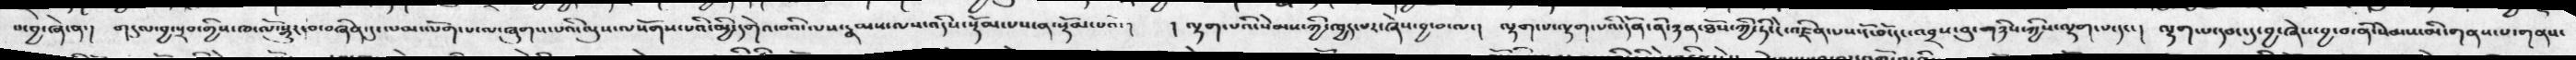བ་བྱི་ཞེ་ན་།   གདུལ་བྱ་སྲབ་གྱི་ཁ་ལོ་སྡུང་བ་བཞིན་དུ་ལམ་ལོག་པ་ལ་ཞུགས་པའི་ལུས་ལསོགས་པའི་མྱི་དགེའ་བའི་ལས་རྣམས་ལས་འདིས་སྡོམ་པས་ན་སྡོམ་པའོ་།   ། ལྷག་པའི་སེམས་ཀྱི་ཁྱད་པར་ཞེས་བྱ་བ་ལ་།   ལྷག་པ་ལྷག་པའི་དོན་ནི་ཉན་ཐོས་ཀྱི་ཏིང་ངེ་འཛིན་པས་ངོ་བོ་དང་འབྲས་བུ་གཉིས་ཀྱིས་ལྷག་པ་དང་།   ལྷག་པ་དབང་དུ་བྱ་ཞེས་བྱ་བ་ནི་སེམས་མི་གནས་པ་གནས་
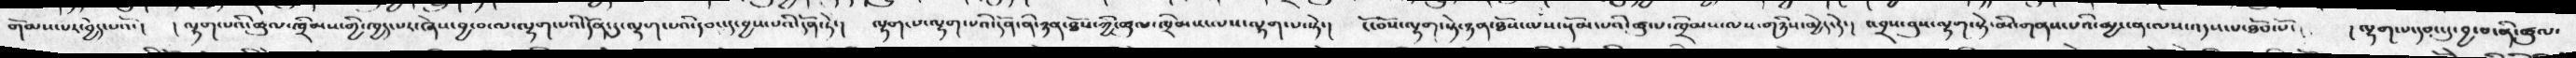གོམས་པར་བྱེད་པའོ་།   །ལྷག་པའི་ཚུལ་ཁྲིམས་གྱི་ཁྱད་པར་ཞེས་བྱ་བ་ལ་ལྷག་པའི་དོན་དུ་ལྷག་པའི་དབང་དུ་བྱས་པའི་དོན་ཏེ་།   ལྷག་པ་ལྷག་པའི་དོན་ནི་ཉན་ཐོས་གྱི་ཚུལ་ཁྲིམས་ལས་ལྷག་པ་སྟེ་།  ངོ་བོས་ལྷག་སྟེ་ཉན་ཐོས་ལས་སྡོམ་པའི་ཚུལ་ཁྲིམས་ལས་གཉིས་མྱེད་དེ་།   འབྲས་བུ་ལྷག་སྟེ་མི་གནས་པའི་མྱ་ངན་ལས་འདས་པ་ཐོབ་པོ་།    ། ལྷག་པ་དབང་དུ་བྱ་བ་ནི་ཚུལ་
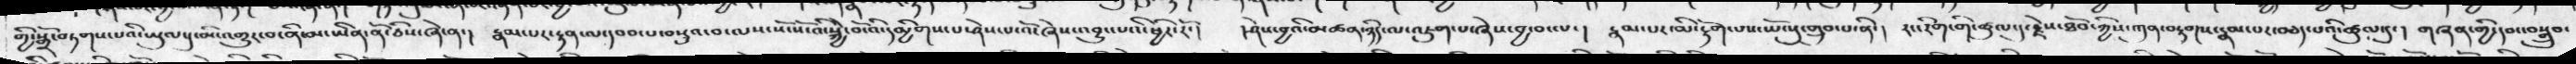གྱི་སྒྲོ་བཏགས་པའི་ཡུལ་དུ་མི་འགྱུར་བ་ནི་མ་ཡིན་ནོ་ཅིས་ཞེ་ན་།   རྣམ་པར་རྟན་ལ་དབབ་པ་བསྡུའ་བ་ལས་སོ་སོ་བ་སྐྱེ་བོ་འི་དམྱིགས་པ་ཤེས་༷པ་འོང་ཞེས་འབྱུང་པའི་ཕྱིར་རོ་།  ། ཤེས་བྱའི་མཚན་ཉིད་ལ་འཇུག་པ་ཞེས་བྱ་བ་ལ་།    རྣམ་པར་མི་རྟོག་པས་ཡོངསུ་གྲུབ་པ་ནི་།   རང་རིག་གི་ཚུལ་དུ་རྗེས་ཐོབ་ཀྱིས་ཀུན་བཏགས་རྣམ་པར་བཅད་པའི་ཚུལལ་དུ་།  གཞན་གྱི་དབང་བསྒྲུབ་
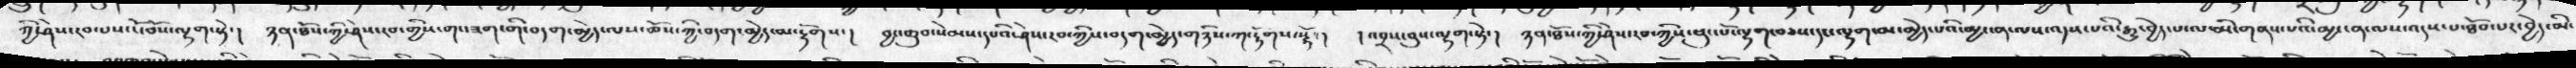ཀྱི་ཤེས་རབ་པས་ངོ་བོས་ལྷག་སྟེ་།   ཉན་ཐོས་ཀྱི་ཤེས་རབ་གྱིས་གང་ཟག་གི་བདག་མྱེད་ལས་ཆོས་ཀྱི་བདག་མྱེད་མ་རྟོགས་།   བྱང་ཆུབ་སེམས་དཔའི་ཤེས་རབ་ཀྱིས་བདག་མྱེད་གཉིས་ཀ་རྟོགས་སྷོ་།  ། འབྲས་བུ་ལྷག་སྟེ་།   ཉན་ཐོས་ཀྱི་ཤེས་རབ་ཀྱིས་ཕུང་པོ་ལྷག་བཅས་དང་ལྷག་མ་མྱེད་པའི་མྱ་ངན་ལས་འདས་པའི་རྒྱུ་བྱེད་པ་ལ་མི་གནས་པའི་མྱ་ངན་ལས་འདས་པ་ཐོབ་པར་བྱེད་མི་
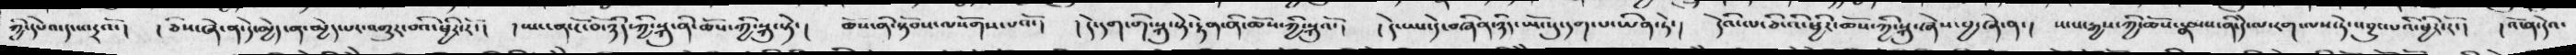གྱི་དཔེའ་དང་འདྲའོ་།   ། ཅིས་ཞེ་ན་དེ་མྱེད་ན་མྱེད་པར་འགྱུར་བའི་ཕྱིར་རོ་།   ། ཡང་ན་ངོ་བོ་ཉིད་ཀྱི་སྐུ་ནི་ཆོས་གྱི་སྐུ་སྟེ་།   ཆོས་ནི་སྟོབས་ལསོགས་པའོ་།   ། དེ་དག་གི་སྐུ་སྟེ་རྟེན་ནི་ཆོས་ཀྱི་སྐུའོ་།   ། དེ་ཡང་དེ་བཞིན་ཉིད་ཡོངསུ་དག་པ་ཡིན་ཏེ་།   དེའི་ལ་ཅི་འི་ཕྱིར་ཆོས་ཀྱི་སྐུ་ཞེས་བྱ་ཞེ་ན་།   སངས་རྒྱས་ཀྱི་ཆོས་རྣམས་ནི་དེ་ལ་རག་ལས་དེ་འབྱུང་པའི་ཕྱིར་རོ་། ། འོ་ན་དེའ་
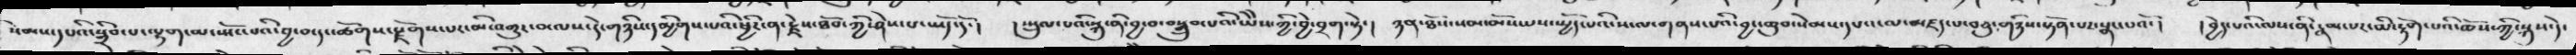སེམས་དཔའི་སྒྲིབ་པ་ལྷག་མ་སྤོང་པའི་བྱ་བ་དང་ཚོགས་རྫོགས་པར་མི་འགྱུར་བ་ལས་དེ་གཉིས་དམྱིགས་པའི་ཕྱིར་ན་རྗེས་ཐོབ་ཀྱི་ཤེས་པ་ཡོད་དོ་།  །སྤྲུལ་པའི་སྐུ་ནི་བྱ་བ་བསྒྲུབ་པའི་ཡེེས་ཀྱི་བྱེ་བྲག་སྟེ་།   ཉན་ཐོས་སམ་མོས་པས་སྤྱོད་པའི་ས་ལ་གནས་པའི་བྱང་ཆུབ་སེམས་དཔའ་ལ་མཛད་པ་བཅུ་གཉིས་སྟོན་པར་སྣང་པའོ་།   ། བྱེད་པའི་ལས་ནི་རྣམ་པར་མི་རྟོག་པའི་ཆོས་ཀྱི་སྙས་དེ་
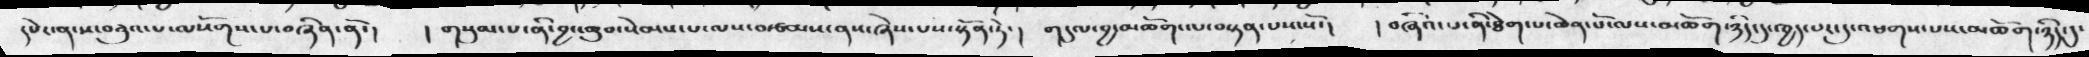དཔེར་ན་ས་བཅུའ་པ་ལསོགས་པ་བཞིན་ནོ་།  ། གསུམ་པ་ནི་བྱང་ཆུབ་སེམས་པ་ལས་བརྩམས་ནས་ཞེས་པས་སྟོན་ཏེ་།   གདུལ་བྱ་མཆོག་པ་བསྟན་པས་སོ་།   ། བཞིའ་པ་ནི་ཐེག་པ་ཆེན་པོ་ལས་མཆོག་ཉིད་དུ་ཁྱད་པར་དུ་འཕགས་པས་མཆོག་ཉིད་དུ་
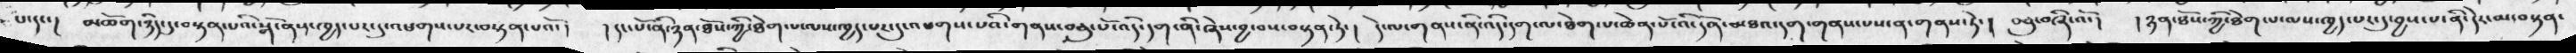པ་དང་།  མཆོག་ཉིད་དུ་བསྟན་པའི་སྒོ་ནས་ཁྱད་པར་དུ་འཕགས་པར་བསྟན་པའོ་།  ། དང་པོ་ནི་ཉན་ཐོས་ཀྱི་ཐེག་པ་ལས་ཁྱད་པར་དུ་འཕགས་པའི་གནས་བཅུ་པོ་འདི་དག་གི་ཞེས་བྱ་བས་བསྟན་ཏེ་།  དེ་ལ་གནས་ནི་འདི་དག་ལ་ཐེག་པ་ཆེན་པོ་འི་དོན་མཐའ་དག་གནས་པས་ན་གནས་ཏེ་།  བཅུ་བཞིའོ་།  ། ཉན་ཐོས་ཀྱི་ཐེག་པ་ལས་ཁྱད་པར་དུ་བྱས་པ་ནི་དེར་མ་བསྟན་
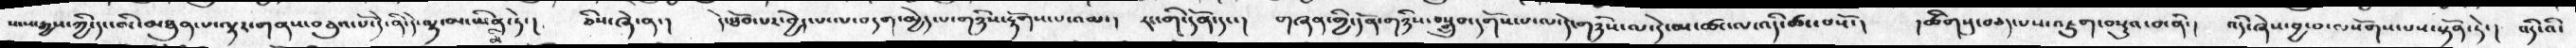སངས་རྒྱས་ཀྱི་དང་མི་མཐུན་པ་ལྟར་གནས་བཅུའ་པ་དེ་ནི་དེ་ལྟ་མ་ཡིན་ཏེ་།  ཅིས་ཞེ་ན་།  དེ་ཐོབ་པར་བྱེད་པ་ལ་བདག་མྱེད་པ་གཉིས་རྟོགས་པ་འམ་།  རང་གི་དོན་དང་།  གཞན་གྱི་དོན་གཉིས་བསྒྲུབ་དགོས་པ་ལ་དེ་གཉིས་ལ་དེ་མ་ཚང་ལ་འདི་ཚས་བསོ་།   །ཆོགསུ་བཅད་པས་འཇུག་བསྡུའ་བ་ནི་།     འདི་ཞེས་བྱ་བ་ལསོགས་པས་སྟོན་ཏེ་།  བདེི་འི་
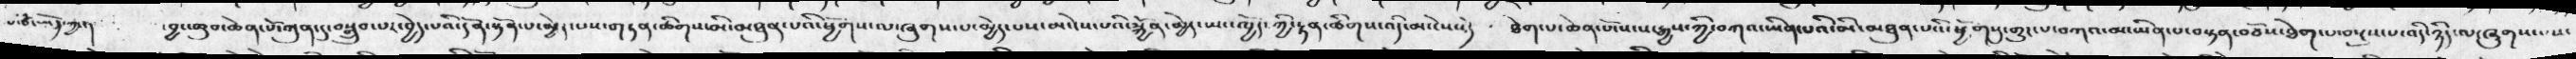པ་ཙཾ་ཡོད་ཀྱང་    ་བྱང་ཆུབ་ཆེན་པོ་ཀུན་དུ་བསྒྲུབ་པར་བྱེད་པའི་དོན་སྟོན་པ་མྱིད་པས་གཏན་ཚིགས་མི་མཐུན་པའི་ཕྱོགས་ལ་ཞུགས་པ་མྱེད་པས་མ་ངེས་པའི་སྐྱོན་མྱེད་ཡང་ཁྱོད་ཀྱི་རྟན་ཚིགས་འདི་མ་ངེས་སོ།  ཐེག་པ་ཆེན་པོ་སངས་རྒྱས་ཀྱི་བཀའ་ཡིན་པའི་མི་མཐུན་པའི་ཕྱོགས་སུ་གྱུར་པ་བཀའ་མ་ཡིན་པ་བསྟན་བཅོས་ཐེག་པ་བསྡུས་པ་འདི་ཉིད་ལ་ཞུགས་པས་
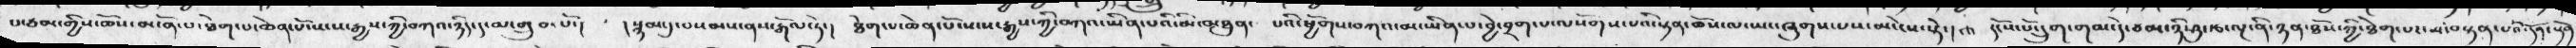པ་ཙམ་གྱིས་ཆོས་མངོན་པ་ཐེག་པ་ཆེན་པོ་སངས་རྒྱས་ཀྱི་བཀའ་ཉིད་དུ་མ་གྲུབ་པོ་།  །སྙམ་དུ་བསམས་ནས་རྒོལ་ཏེ་།  ཐེག་པ་ཆེན་པོ་སངས་རྒྱས་ཀྱི་བཀའ་ཡིན་པའི་མི་མཐུན་   པའི་ཕྱོགས་བཀའ་མ་ཡིན་པ་བྱེ་བྲག་པ་ལསོགས་པའི་སྟན་ཆོས་ལ་ཡང་ཞུགས་པས་མ་ངེས་སྟེ་།  དངོས་པོ་དྲུག་གམ་དེ་ཙམ་ཉི་ཤུ་རྩ་ལྔ་ནི་ཉན་ཐོས་ཀྱི་ཐེག་པར་མ་བསྟན་པའི་དོན་སྟོན
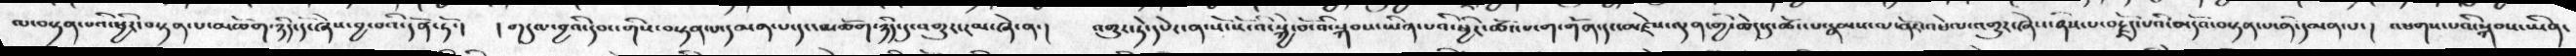ལ་བསྟན་པའི་ཕྱིར་བསྟན་པ་མཆོག་ཉིད་དོ་ཞེས་བྱ་བའི་དོན་ཏོ་།   །གདུལ་བྱའི་དབང་གིས་བསྟན་པ་དམན་པ་དང་མཆོག་ཉིད་དུ་བགྱུར་རམ་ཞེ་་ན་།  འགྱུར་ཏེ་དཔེར་ན་སོ་སོ་འི་སྐྱེ་བོ་འི་སྐབས་ཡིན་པའི་ཕྱིར་ཚོང་པ་ག་གོན་དང་མཛེས་ལྡན་གྱི་ཆེད་དུ་ཚོང་པ་རྣམས་པ་ནོར་འཕེལ་འགྱུར་ཞེས་ཉེས་པ་བརྗོད་པའི་མདོབ་བསྟན་པ་ནི་དམན་པ་།  འཕགས་པའི་སྐབས་ཡིན་
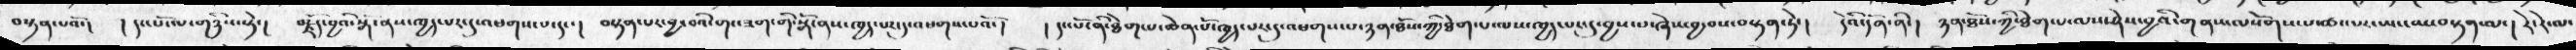བསྟན་པའོ་།  ། དང་པོ་ལ་གཉིས་ཏེ་།   བརྗོད་བྱའི་སྒོ་ནས་ཁྱད་པར་དུ་འཕགས་པ་དང་།  བསྟན་པར་བྱ་བའི་གང་ཟག་གི་སྒོ་ནས་ཁྱད་པར་དུ་འཕགས་པའོ་།    ། དང་པོ་ནི་ཐེག་པ་ཆེན་པོ་ཁྱད་པར་དུ་འཕགས་པ་ཉན་ཐོས་ཀྱི་ཐེག་པ་ལས་ཁྱད་པར་དུ་བྱས་པ་ཞེས་བྱ་བས་བསྟན་ཏེ་།  དེའི་དོན་ནི།   ཉན་ཐོས་ཀྱི་ཐེག་པ་ལས་ཤེས་བྱའི་གནས་ལསོགས་པ་ཚང་པར་ཡང་མ་བསྟན་ལ་།  རེ་རེ་ལ་
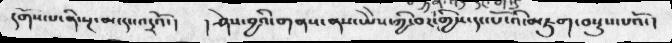དགོས་པ་ནི་སྔ་མ་དང་འདྲའོ་།  །ཤེས་བྱའི་གནས་ནས་ཡེེས་ཀྱི་བར་གྱིས་དང་པོ་འི་མཇུག་བསྡུས་པའོ་།
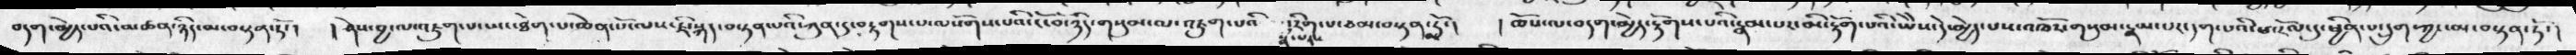བདག་མྱེད་པའི་མཚན་ཉིད་མ་བསྟན་ཏོ་།   ། ཤེས་བྱ་ལ་འཇུག་པ་ཡང་ཐེག་པ་ཆེན་པོ་ལས་ཇི་སྐད་བསྟན་པའི་ཀུན་དུ་བརྟགས་པ་ལསོགས་པའི་ངོ་བོ་ཉིད་གསུམ་ལ་འཇུག་པའི་རྣཾ་པར་རིག་པ་ཙམ་བསྟན་ཏོ་།   ། ཆོས་ལ་བདག་མྱེད་རྟོགས་པའི་རྣམ་པར་མི་རྟོག་པའི་ཡེེས་དེ་མྱེད་པས་འཁོར་གསུམ་རྣམ་པར་དག་པའི་ཕ་རོལ་དུ་ཕྱིན་པ་དྲུག་ཀྱང་མ་བསྟན་ཏོ་།
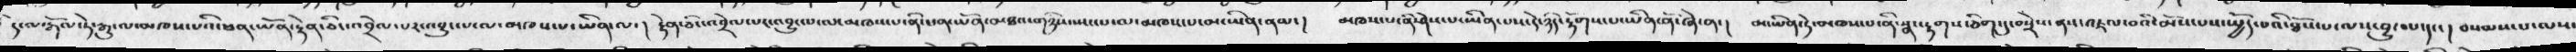དེ་ལ་རྒོལ་ཏེ་རྒྱུ་ལ་མཁས་པའི་ཕན་ཡོན་རྟེན་ཅིང་འབྲེལ་པར་འབྱུང་པ་ལ་མཁས་པ་ཡིན་ལ་།  རྟེན་ཅིང་འབྲེལ་པར་འབྱུང་ལ་མཁས་པ་ནི་ཕན་ཡོན་མཐའ་གཉིས་སྤང་པ་ལ་མཁས་པ་མ་ཡིན་ནམ་།  མཁས་པ་ནི་ཤེས་པ་ཡིན་པས་དེ་ཉིད་རྟོགས་པ་ཡིན་ནོ་ཞེ་ན་།  མ་ཡིན་ཏེ་མཁས་པ་ནི་སྣང་རྟགས་ཅིག་དུ་བསྲེས་ནས་འཇལ་བའི་མོས་པས་སྤྱོད་པའི་ཐོས་པ་ལས་བྱུང་པ་དང་།    བསམས་པ་ལས
